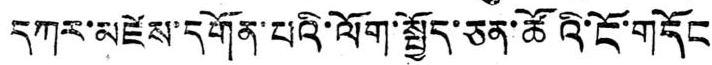དཀར་མཛེས་དགོན་པའི་ལོག་སྤྱོད་ཅན་ཚོའི་ངོ་གདོང
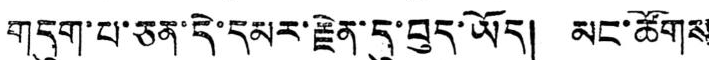གདུག་པ་ཅན་དེ་དམར་རྗེན་དུ་བུད་ཡོད། མང་ཚོགས
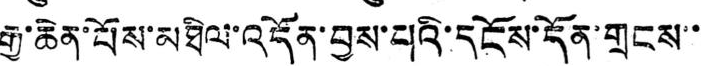རྒྱ་ཆེན་པོས་མཐིལ་འདོན་བྱས་པའི་དངོས་དོན་གྲངས་་
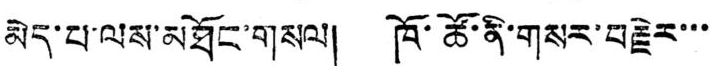མེད་པ་ལས་མཐོང་གསལ། ཁོ་ཚོ་ནི་གསར་བརྗེར་་་
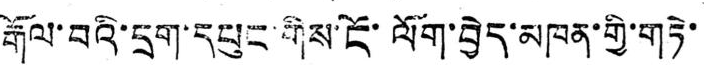རྒོལ་བའི་དྲག་དཔུང་གིས་ངོ་ལོག་བྱེད་མཁན་གྱི་གཏེ་
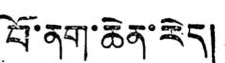བོ་ནག་ཆེན་རེད།
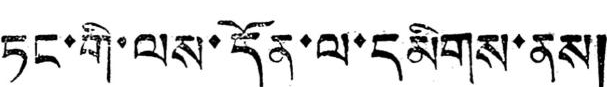ཏང་གི་ལས་དོན་ལ་དམིགས་ནས།
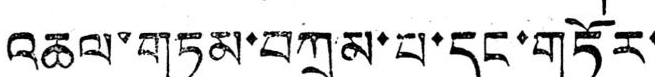འཆལ་གཏམ་བཀྲམ་པ་དང་གཏོར་
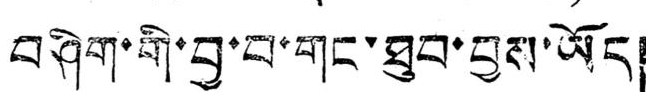བཤིག་གི་བྱ་བ་གང་ཐུབ་བྱས་ཡོད།
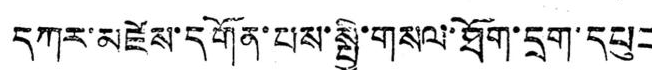དཀར་མཛེས་དགོན་པས་སྤྱི་གསལ་ཐོག་དྲག་དཔུང་
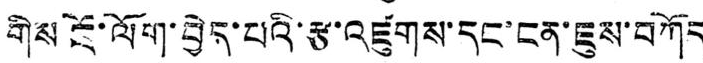གིས ངོ་ལོག་བྱེད་པའི་རྩ་འཛུགས་དང་ངན་ཇུས་བཀོད
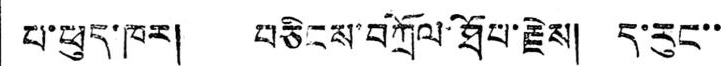པ་ཕུད་ཁར། བཅིངས་བཀྲོལ་ཐོབ་རྗེས། ད་རུང་་
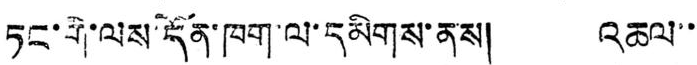ཏང་གི་ལས་དོན་ཁག་ལ་དམིགས་ནས། འཆལ་་་
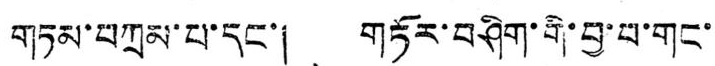གཏམ་བཀྲམ་པ་དང་། གཏོར་བཤིག་གི་བྱ་བ་གང་
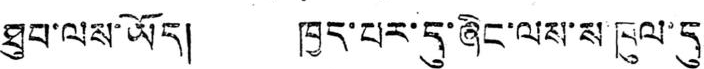ཐུབ་ལས་ཡོད། ཁྱད་པར་དུ་ཞིང་ལས་ས་ཁུལ་དུ
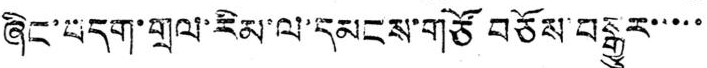ཞིང་བདག་གྲལ་རིམ་ལ་དམངས་གཙོ བཅོས་བསྒྱུར་་་་་
